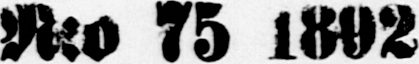N:o 75 1892
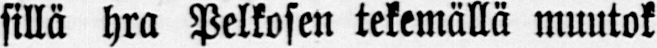sillä hra Pelkosen tekemällä muutok-
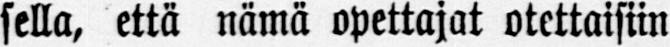sella, että nämä opettajat otettaisiin
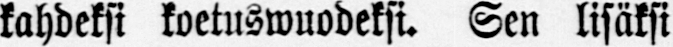kahdeksi koetuswuodeksi. Sen lisäksi
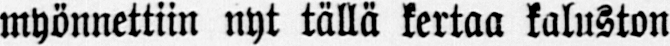myönnettiin nyt tällä kertaa kaluston
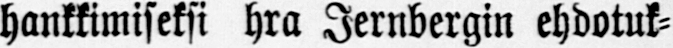hankkimiseksi hra Jernbergin ehdotuk-
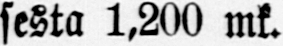sesta 1,200 mk.
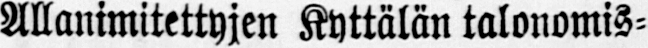Allanimitettyjen Kyttälän talonomis-
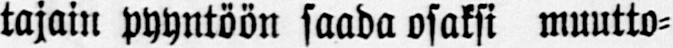tajain pyyntöön saada osaksi muutto-
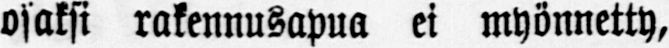osaksi rakennusapua ei myönnetty,
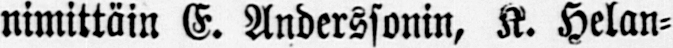nimittäin E. Anderssonin, K. Helan-
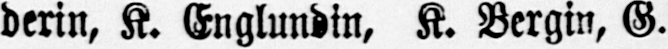derin, K. Englundin, K. Bergin, G-
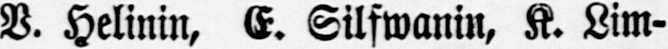V. Helinin, E. Silfwanin, K. Lim-
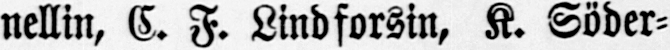nellin, C. F. Lindforsin, K. Söder-
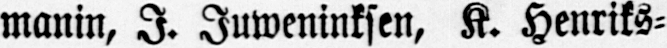manin, I. Juweninksen, K. Henriks-
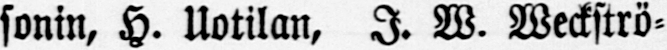sonin, H. Uotilan, I. W. Weckströ-
